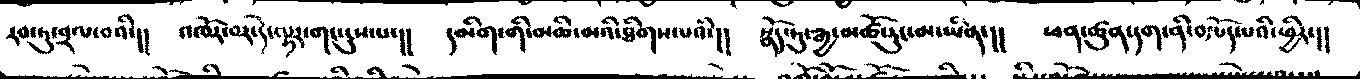རབ་ཏུ་བྲལ་བའི་།།  འཁོར་བར་དེ་ལྟར་གང་དུས་པ་།།  དམིག་གི་མཆི་མའི་ཐིགས་པའི་།།  སྣོད་ཏུ་རྒྱ་མཚོ་རུང་མ་ཡིན་།།  ཕན་ཚུན་དག་ནི་བརྩོད་པའི་ཕྱིར་།།
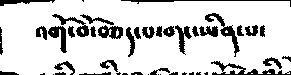འགོ་བོ་བཆད་པ་གང་ཡིན་པ་
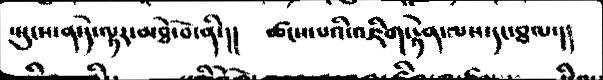སྤུངས་ན་དེ་ལྟར་མཐོ་བ་ནི་།།  ཚངས་པའི་འཇིག་རྟེན་ལས་དང་ཐལ་།།
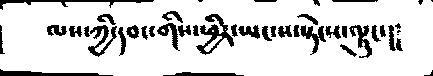ལས་ཀྱི་དབང་གིས་ཕྱིར་ཡང་ས་སྟེངས་ལྟུང་།།
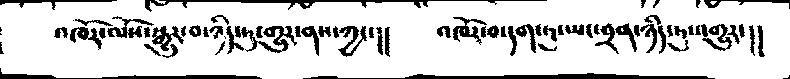འཁོར་ལོས་སྒྱུར་བ་ཉིད་ཏུ་གྱུར་ནས་ཀྱང་།།  འཁོར་བ་དག་ཏུ་ཡང་བྲན་ཉིད་ཏུ་འགྱུར་།།
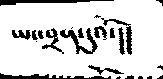ཡང་བྲན་དུའོ་།།
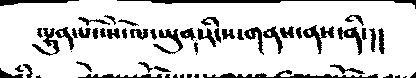ལྷུན་པོ་སྤོ་ལ་ཡུན་རིངས་གནས་ནས་ནི་།།
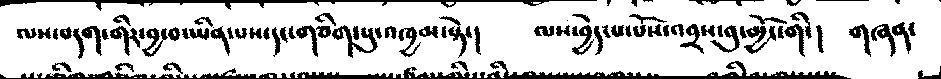ལས་བདག་གིར་བྱ་བ་ཡིན་པས་དང་གཅིག་པུ་འཁྱམ་སྟེ་།  ལས་བྱེད་པ་པོས་འབྲས་བུ་མྱོང་གི་།  གཞན་
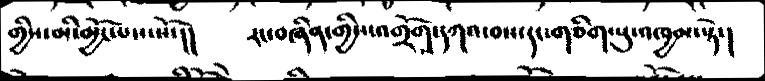གྱིས་མི་མྱོང་པས་སོ་།།  རང་བཞིན་གྱིས་འགྲོག་དཀའ་བས་དང་གཅིག་པུ་འཁྱམ་སྟེ་།
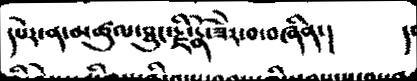དཔེར་ན་མཚུལ་ཐུང་རྗི་རྣོ་ཟེར་བ་བཞིན་།   །
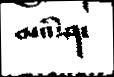མའི་ཤ་
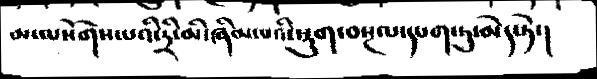མ་ལསོགས་པའི་དྲི་མི་ཞིམ་པའི་སྡུག་བསྔལ་དཔག་ཏུ་མེད་ཏེ་།
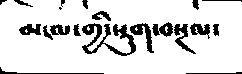མངལ་གྱི་སྡུག་བསྔལ་
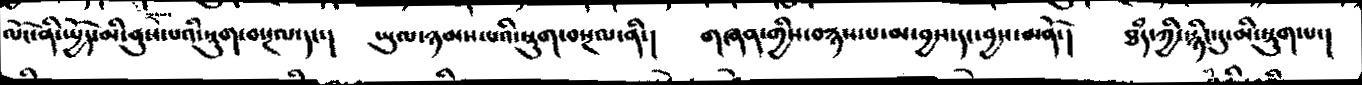ལོང་ནི་སྤྱོད་མི་ནུས་པའི་སྡུག་བསྔལ་དང་།  ཡུལ་ཉམས་པའི་སྡུག་བསྔལ་ནི་།  གཞན་གྱིས་བརྙས་པ་མ་བྱས་དང་བྱས་མནོ་།  ཐཾད་ཀྱི་རྙིང་དུ་མི་སྡུག་པ་།
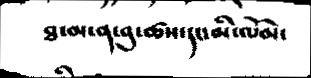ཐ་མ་ན་བུ་ཚས་དང་མི་ལོམ་
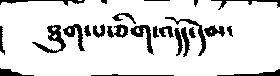ཐུག་པ་ཅིག་འདོད་དམ་
